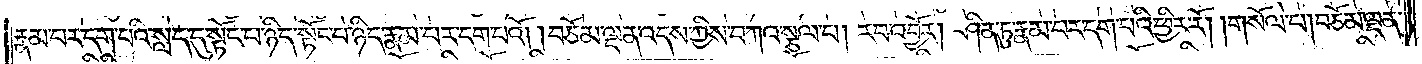རྣམ་པར་དག་པའི་སླད་དུ་སྟོང་པ་ཉིད་སྟོང་པ་ཉིད་རྣམ་པར་དག་པའོ། །བཅོམ་ལྡན་འདས་ཀྱིས་བཀའ་སྩལ་པ། རབ་འབྱོར། ཤིན་ཏུ་རྣམ་པར་དག་པའི་ཕྱིར་རོ། །གསོལ་པ། བཅོམ་ལྡན་
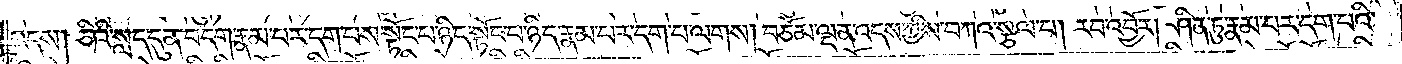འདས། ཅིའི་སླད་དུ་ན་བདག་རྣམ་པར་དག་པས། སྟོང་པ་ཉིད་སྟོང་པ་ཉིད་རྣམ་པར་དག་པ་ལགས། བཅོམ་ལྡན་འདས་ཀྱིས་བཀའ་སྩལ་པ། རབ་འབྱོར། ཤིན་ཏུ་རྣམ་པར་དག་པའི་
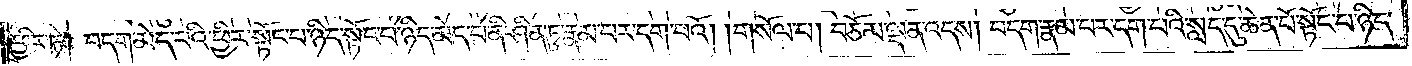ཕྱིར་ཏེ། བདག་མེད་པའི་ཕྱིར་སྟོང་པ་ཉིད་སྟོང་པ་ཉིད་མེད་པ་ནི་ཤིན་ཏུ་རྣམ་པར་དག་པའོ། །གསོལ་པ། བཅོམ་ལྡན་འདས། བདག་རྣམ་པར་དག་པའི་སླད་དུ་ཆེན་པོ་སྟོང་པ་ཉིད་
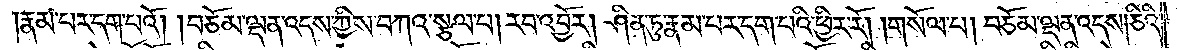རྣམ་པར་དག་པའོ། །བཅོམ་ལྡན་འདས་ཀྱིས་བཀའ་སྩལ་པ། རབ་འབྱོར། ཤིན་ཏུ་རྣམ་པར་དག་པའི་ཕྱིར་རོ། །གསོལ་པ། བཅོམ་ལྡན་འདས། ཅིའི་
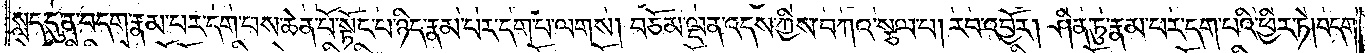སླད་དུ་ན་བདག་རྣམ་པར་དག་པས་ཆེན་པོ་སྟོང་པ་ཉིད་རྣམ་པར་དག་པ་ལགས། བཅོམ་ལྡན་འདས་ཀྱིས་བཀའ་སྩལ་པ། རབ་འབྱོར། ཤིན་ཏུ་རྣམ་པར་དག་པའི་ཕྱིར་ཏེ། བདག་
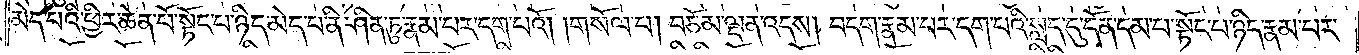མེད་པའི་ཕྱིར་ཆེན་པོ་སྟོང་པ་ཉིད་མེད་པ་ནི་ཤིན་ཏུ་རྣམ་པར་དག་པའོ། །གསོལ་པ། བཅོམ་ལྡན་འདས། བདག་རྣམ་པར་དག་པའི་སླད་དུ་དོན་དམ་པ་སྟོང་པ་ཉིད་རྣམ་པར་
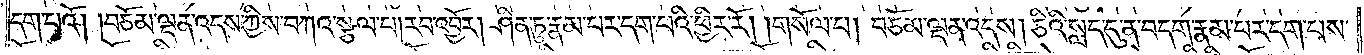དག་པའོ། །བཅོམ་ལྡན་འདས་ཀྱིས་བཀའ་སྩལ་པ། རབ་འབྱོར། ཤིན་ཏུ་རྣམ་པར་དག་པའི་ཕྱིར་རོ། །གསོལ་པ། བཅོམ་ལྡན་འདས། ཅིའི་སླད་དུ་ན་བདག་རྣམ་པར་དག་པས་
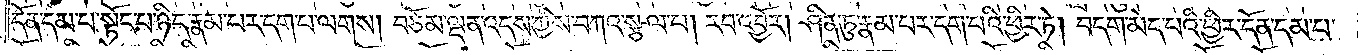དོན་དམ་པ་སྟོང་པ་ཉིད་རྣམ་པར་དག་པ་ལགས། བཅོམ་ལྡན་འདས་ཀྱིས་བཀའ་སྩལ་པ། རབ་འབྱོར། ཤིན་ཏུ་རྣམ་པར་དག་པའི་ཕྱིར་ཏེ། བདག་མེད་པའི་ཕྱིར་དོན་དམ་པ་
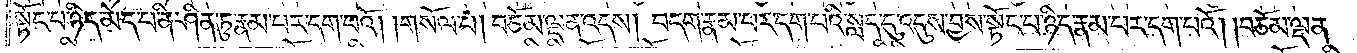སྟོང་པ་ཉིད་མེད་པ་ནི་ཤིན་ཏུ་རྣམ་པར་དག་པའོ། །གསོལ་པ། བཅོམ་ལྡན་འདས། བདག་རྣམ་པར་དག་པའི་སླད་དུ་འདུས་བྱས་སྟོང་པ་ཉིད་རྣམ་པར་དག་པའོ། །བཅོམ་ལྡན་
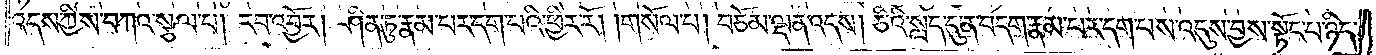འདས་ཀྱིས་བཀའ་སྩལ་པ། རབ་འབྱོར། ཤིན་ཏུ་རྣམ་པར་དག་པའི་ཕྱིར་རོ། །གསོལ་པ། བཅོམ་ལྡན་འདས། ཅིའི་སླད་དུ་ན་བདག་རྣམ་པར་དག་པས་འདུས་བྱས་སྟོང་པ་ཉིད་
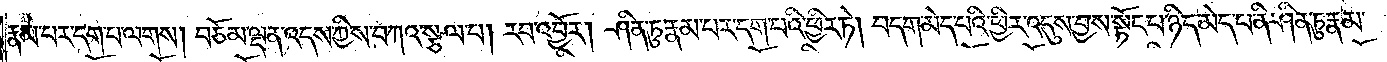རྣམ་པར་དག་པ་ལགས། བཅོམ་ལྡན་འདས་ཀྱིས་བཀའ་སྩལ་པ། རབ་འབྱོར། ཤིན་ཏུ་རྣམ་པར་དག་པའི་ཕྱིར་ཏེ། བདག་མེད་པའི་ཕྱིར་འདུས་བྱས་སྟོང་པ་ཉིད་མེད་པ་ནི་ཤིན་ཏུ་རྣམ་
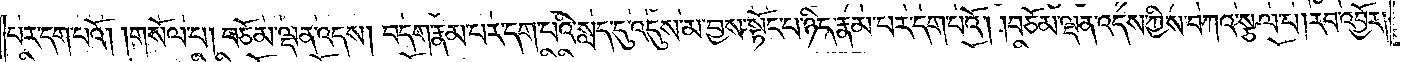པར་དག་པའོ། །གསོལ་པ། བཅོམ་ལྡན་འདས། བདག་རྣམ་པར་དག་པའི་སླད་དུ་འདུས་མ་བྱས་སྟོང་པ་ཉིད་རྣམ་པར་དག་པའོ། །བཅོམ་ལྡན་འདས་ཀྱིས་བཀའ་སྩལ་པ། རབ་འབྱོར།
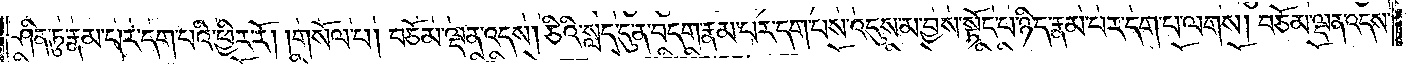ཤིན་ཏུ་རྣམ་པར་དག་པའི་ཕྱིར་རོ། །གསོལ་པ། བཅོམ་ལྡན་འདས། ཅིའི་སླད་དུ་ན་བདག་རྣམ་པར་དག་པས། འདུས་མ་བྱས་སྟོང་པ་ཉིད་རྣམ་པར་དག་པ་ལགས། བཅོམ་ལྡན་འདས་
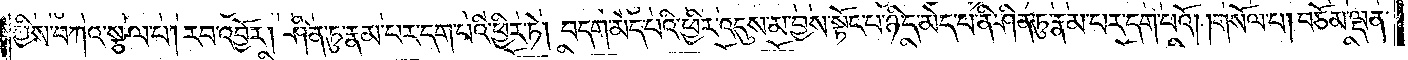ཀྱིས་བཀའ་སྩལ་པ། རབ་འབྱོར། ཤིན་ཏུ་རྣམ་པར་དག་པའི་ཕྱིར་ཏེ། བདག་མེད་པའི་ཕྱིར་འདུས་མ་བྱས་སྟོང་པ་ཉིད་མེད་པ་ནི་ཤིན་ཏུ་རྣམ་པར་དག་པའོ། །གསོལ་པ། བཅོམ་ལྡན་
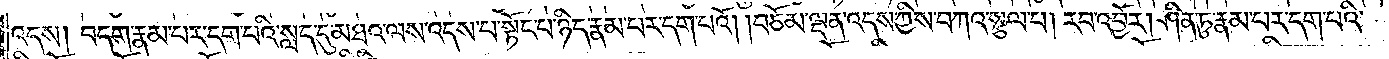འདས། བདག་རྣམ་པར་དག་པའི་སླད་དུ་མཐའ་ལས་འདས་པ་སྟོང་པ་ཉིད་རྣམ་པར་དག་པའོ། །བཅོམ་ལྡན་འདས་ཀྱིས་བཀའ་སྩལ་པ། རབ་འབྱོར། ཤིན་ཏུ་རྣམ་པར་དག་པའི་
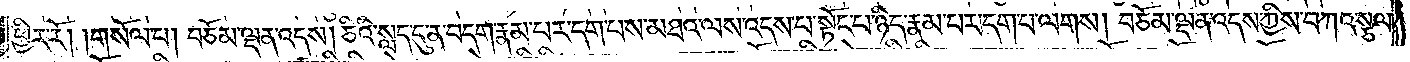ཕྱིར་རོ། །གསོལ་པ། བཅོམ་ལྡན་འདས། ཅིའི་སླད་དུ་བདག་རྣམ་པར་དག་པས་མཐའ་ལས་འདས་པ་སྟོང་པ་ཉིད་རྣམ་པར་དག་པ་ལགས། བཅོམ་ལྡན་འདས་ཀྱིས་བཀའ་སྩལ་
